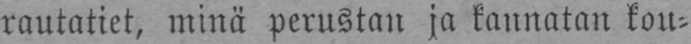rautatiet, minä perustan ja kannatan kou-
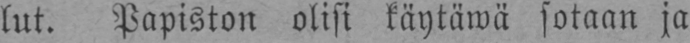lut. Papiston olisi käytäwä sotaan ja
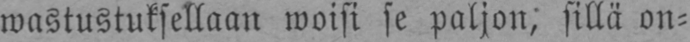wastustuksellaan woisi se paljon; sillä on-
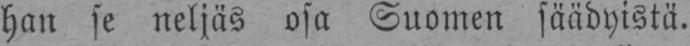han se neljäs osa Suomen säädyistä.
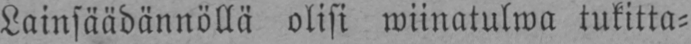Lainsäädännöllä olisi wiinatulwa tukitta-
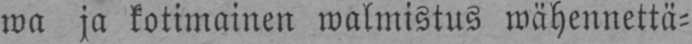wa ja kotimainen walmistus wähennettä-
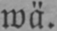wä.
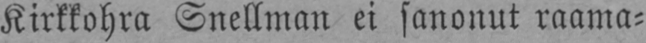Kirkkohra Snellman ei sanonut raama-
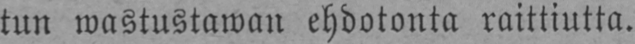tun wastustawan ehdotonta raittiutta.
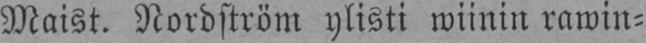Maist. Nordström ylisti wiinin rawin-
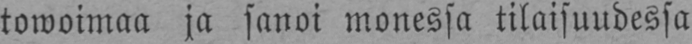towoimaa ja sanoi monessa tilaisuudessa
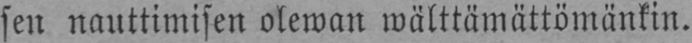sen nauttimisen olewan wälttämättömänkin.
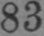83
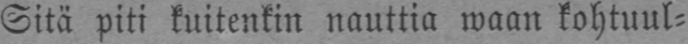Sitä piti kuitenkin nauttia waan kohtuul-
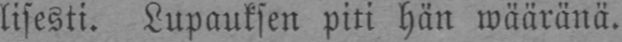lisesti. Lupauksen piti hän wääränä.
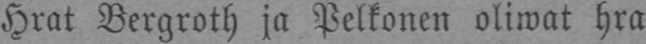Hrat Bergroth ja Pelkonen oliwat hra
